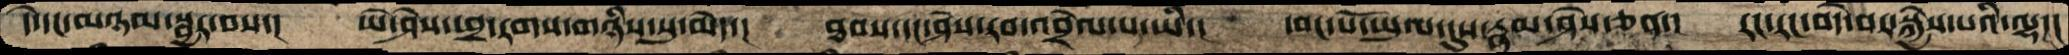དེ་དང་མཉམ་སྦྱར་བས་།  ཡེ་ཤེས་ཕྲ་རགས་གཉིས་སུ་མེད་།  ཐབས་དང་ཤེས་རབ་འབྲེལ་པ་ཡི་།  དབང་པོ་ཡུལ་དུས་རྣམ་ཤེས་ཅན་།  རང་རང་བདེ་བར་སྐྱེས་པའི་ལྷ་།
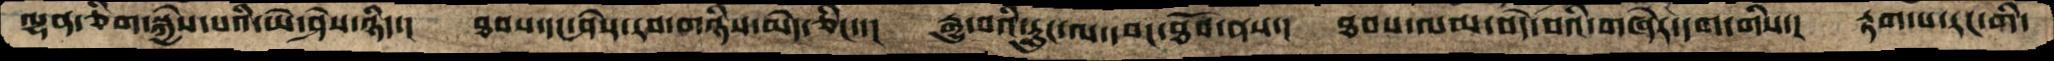ལྷན་ཅིག་སྐྱེས་པའི་ཡེ་ཤེས་ཉིད་།  ཐབས་དང་ཤེས་རབ་གཉིས་མེད་ཅིང་་།  རྒྱུ་བའི་རླུང་ལ་དབང་ཐོབ་ནས་།  ཐབས་ལམ་བདེ་བའི་གཞེར་དག་གིས་།  རྟག་པ་རང་གི་
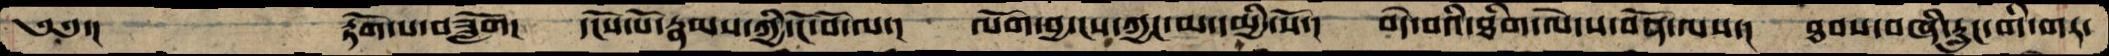༄༅་།       རྟོག་པ་བཟློག།  དངོས་པོ་རྣམས་ཀྱི་ངོ་བོ་ལ་།   ལོག་བྱ་ངས་ཀྱང་མ་དམྱི་སོ་།  བདེ་བའི་ཐིག་ལེ་ས་བོན་ལས་།  ཐབས་བཞི་རླུང་གི་གར་
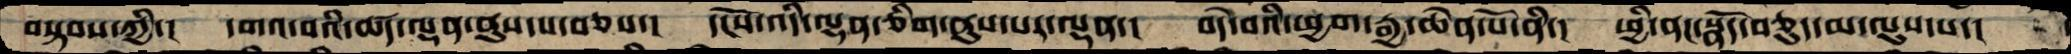བསྟབས་ཀྱི་།  དགའ་བའི་ཚད་ལྡན་ནུས་པ་བཅས་།  དངོས་འདི་ལྷན་ཅིག་ནུས་པར་ལྡན་།  བདེ་བའི་ཕྱག་རྒྱ་ཆེན་པོ་ནི་།  ཕྱི་ནང་སྣོད་བཅུད་མ་ལུས་པ་།
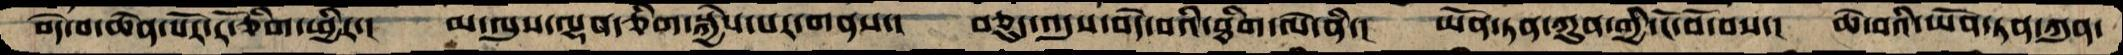བདེ་བ་ཆེན་པོར་རོ་ཅིག་ཕྱིར་།  མ་ལུས་ལྷན་ཅིག་སྐྱེས་པར་གནས་།  བཅུད་འདུས་བདེ་བའི་ཐིག་ལེ་ནི་།  ཡོན་ཏན་ཀུན་གྱི་ངོ་བོ་བས་།  ཆེ་བའི་ཡོན་ཏན་ཀུན་
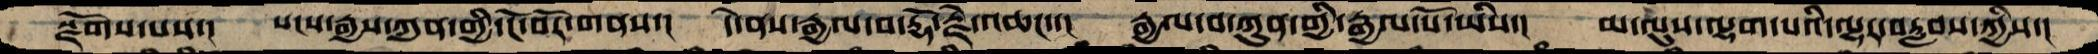སྫོགས་པས་།  སངས་རྒྱས་ཀུན་གྱི་ངོ་བོར་གནས་།  དེ་ནས་རྒྱལ་བ་རྡོ་རྗེ་འཆང་་།  རྒྱལ་བ་ཀུན་གྱི་རྒྱལ་པོ་ཡིས་།  མ་ལུས་ལྷག་པའི་ལྷར་བརླབས་ཀྱིས་།
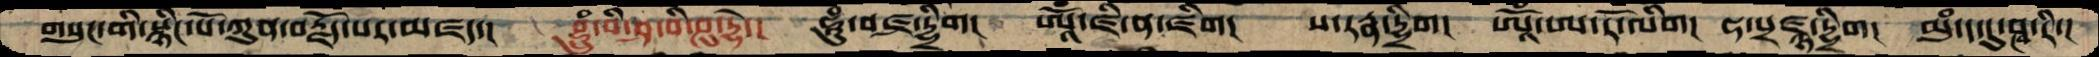གསུང་གི་སྙིང་པོ་ཀུན་བརྗོད་པར་མཛད་།  བྷྲུཾ་བི་ཤ་བི་ཤུ་དྷེ་།  ཧཱུཾ་བཛྲ་དྷྲིག།  ཨཱོཾ་ཛི་ན་ཛིག།  ས་རཏྣ་དྷྲིག།  ཨཱོཾ་ཨ་རོ་ལིག།  ཧ་པྲཛྙ་དྷྲིག།  མུཾ་ད་དུ་ཤྭ་རི་།
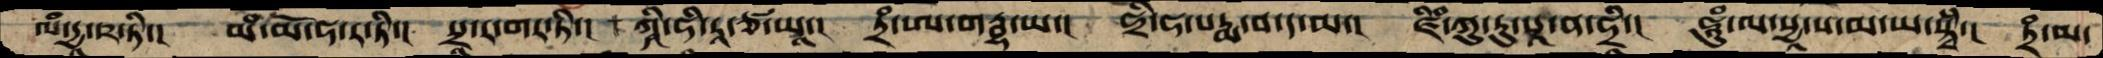ལཾ་དྱ་ཥ་ཏི་།  མཾ་མོ་ཧ་ར་ཏི་།  པྲ་ར་གར་ཏི་།  ཀཱི་ཧི་རཱ་ཙ་ཡཱ་།  ཏྲཾ་ཨ་གརྦྷ་ཡ་།  ཧྲི་ཧ་པདྨ་བ་ད་མ་།  ཛིཾ་ཀུ་རུ་པཱ་ན་ཧྲི་།  ཧཱུཾ་ལ་སྱ་ས་མ་ཡ་སྟྭཾ་།  ཏྲཾ་མ་
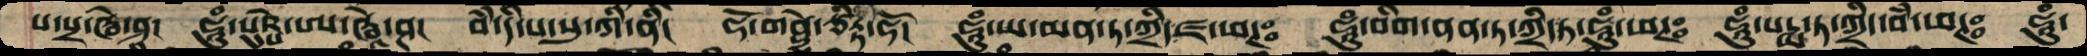པ་སྲ་ཝེ་ཤ།   ཧཱུཾ་པུཥྤེ་ཨ་ཝཱེ་ཤ།  བཾ་དི་པ་སུ་ཀི་ནི་།  ཧོ་གནྡྷེ་ཙིཏྟ་ཧོ།  ཧཱུཾ་ཡ་མན་ཏ་ཀྲིད་ཛ་ཕཊཿ  ཧཱུཾ་བིག་ནན་ཏ་ཀྲིད་ཏ་ཧཱུཾ་ཕཊཿ  ཧཱུཾ་པདྨ་ཏ་ཀྲིད་བཾ་ཕཊཿ  ཧཱུཾ་
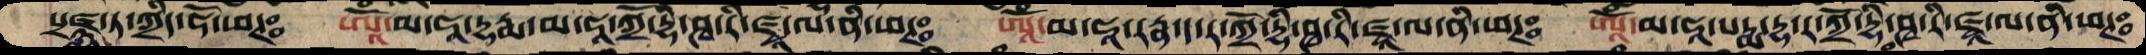སྲཛྙཱ་ཏ་ཀྲིད་ཧོ་ཕཊཿ  ཨཱོཾ་མ་ཧཱ་དྷརྨ་མ་ཧཱ་ཀྲོ་དྷི་ཤྭ་རི་ཛྭཱ་ལ་ནི་ཕཊཿ  ཨཱོཾ་མ་ཧཱ་རཏྣ་ད་ར་ཀྲོ་དྷི་ཤྭ་རི་ཛྭཱ་ལ་ནི་ཕཊཿ  ཨཱོཾ་མ་ཧཱ་པདྨ་དྷ་ར་ཀྲོ་དྷི་ཤྭ་རི་ཛྭཱ་ལ་ནི་ཕཊཿ
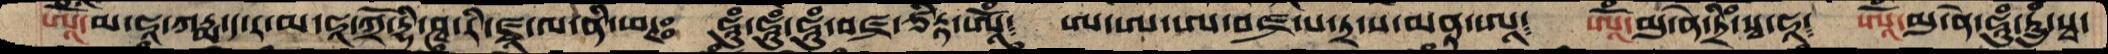ཨཱོཾ་མ་ཧཱ་ཀརྨ་ད་ར་མ་ཧཱ་ཀྲོ་དྷི་ཤྭ་རི་ཛྭཱ་ལ་ནི་ཕཊཿ  ཧཱུཾ་ཧཱུཾ་ཧཱུཾ་བཛྲ་ཙིཏྟ་ཨཱོཾ༴  ཨ་ཨ་ཨ་བཛྲ་པ་ཏྲ་ས་མནྟ་ཨཱ༴  ཨཱོཾ་མུ་ནེ་ཏྲིཾ་སྭ་ཧཱ་  ཨཱོཾ་མུ་ནེ་ཧཱུཾ་དཏྲུཾ་སྭ་
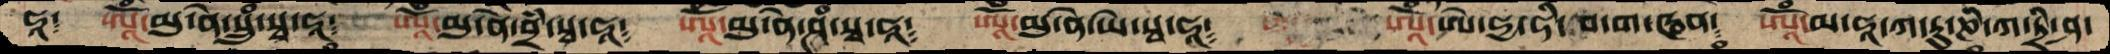ཧཱ༴  ཨཱོཾ་མུ་ནེ་སྲུཾ་སྭ་ཧཱ༴  ཨཱོཾ་མུ་ནེ་བྲཾ་སྭ་ཧཱ༴  ཨཱོཾ་མུ་ནེ་ཤཾ་སྭ་ཧཱ༴   ཨཱོཾ་མུ་ནེ་ཡེ་སྭ་ཧཱ༴  ཨཱོཾ་ཨེ་ཧྱ་ཧི་བ་ག་ཝན༴  ཨཱོཾ་མ་ཧཱ་ཀ་རུ་ཎི་ཀ་ཏྲི་ཤ་
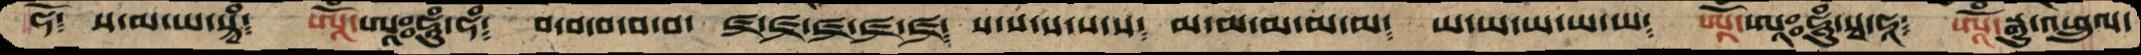ཧོ༴  ས་མ་ཡ་སྟྭཾ༴  ཨཱོཾ་ཨཱཿཧཱུཾ་ཧཾ༴  བ་བ་བ་བ་བ་  ཛྲ་ཛྲ་ཛྲ་ཛྲ་ཛྲ༴  ས་ས་ས་ས་ས༴  མ་མ་མ་མ་མ༴  ཡ་ཡ་ཡ་ཡ་ཡ༴ ཨཱོཾ་ཨཱཿཧཱུཾ་སྭ་ཧཱ༴  ཨཱོཾ་སྒྱུ་འཕྲུལ་
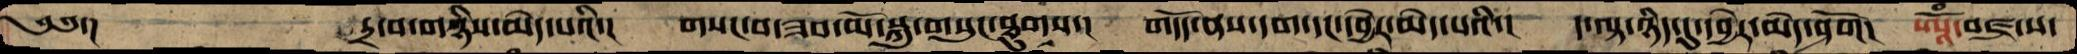༄༅་།     དྲ་བ་གཉིས་མེད་པའི་།  གསང་བ་ཟབ་མོ་སྐུ་གསུང་ཐུགས་།  གོདད་ནས་དག་དང་དབྱེར་མེད་པའི་།  ད་ལྟ་ཉིད་དུ་དབྱེར་མེད་ཤོག།  ཨཱོཾ་བཛྲ་ས་
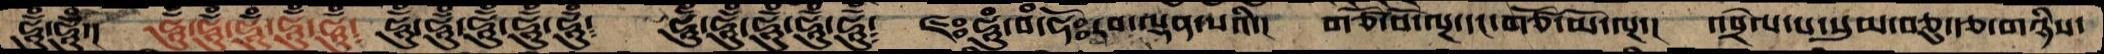ཧཱུྃ་ཧཱུྃ་།  ཧཱུྃ་ཧཱུྃ་ཧཱུྃ་ཧཱུྃཧཱུྃཧཱུྃ༴  ཧཱུྃ་ཧཱུྃ་ཧཱུྃ་ཧཱུྃ་ཧཱུྃ༴  ཧཱུྃ་ཧཱུྃ་ཧཱུྃ་ཧཱུྃ་ཧཱུྃ༴  ཛཿཧཱུཾ་བཾ་ཧོཿརབ་ལྡན་པའི་།  གཙོ་བོ་ལྔ་དང་གཙོ་མོ་ལྔ་།  འབྲེལ་པ་སུམ་བཅུ་རྩ་གཉིས་
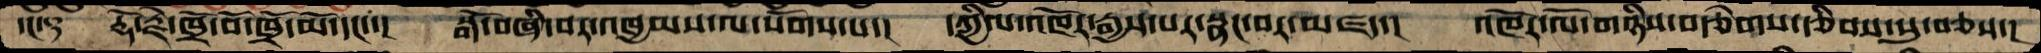དང༑   རྡོ་རྗེ་ཁྲོ་བོ་ཁྲོ་མོ་དང་་།  སྒོ་བཞི་བར་འཁྱམས་ལ་སོགས་པ་།  དཀྱིལ་འཁོར་རྒྱས་པར་སྣང་བར་མཛད་།  འཁོར་ལོ་གཉིས་བརྩེགས་རྩིབས་སུ་བཅས་།
